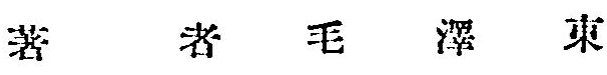著 者 毛 澤 東
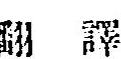翻 譯
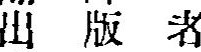出 版 者
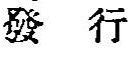發 行
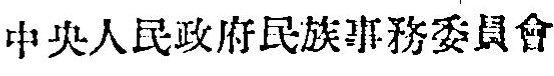中央人民政府民族事務委員會
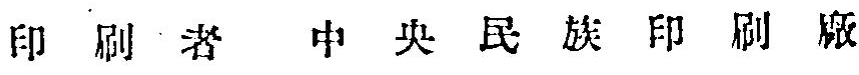印 刷 者 中 央 民 族 印 刷 廠
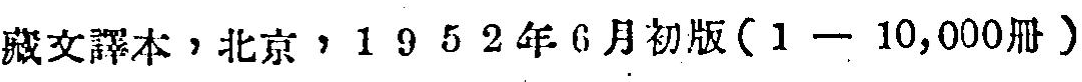藏文譯本，北京，1 9 5 2 年 6 月初版（1 — 10,000冊）
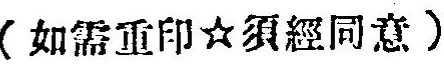（如需重印☆須經同意）
